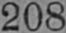208
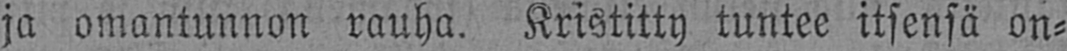ja omantunnon rauha. Kristitty tuntee itsensä on-
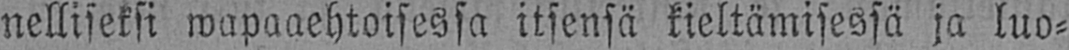nelliseksi wapaaehtoisessa itsensä kieltämisessä ja luo-
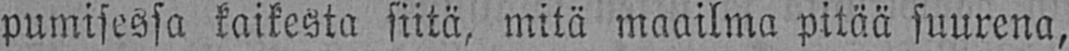pumisessa kaikesta siitä, mitä maailma pitää suurena,
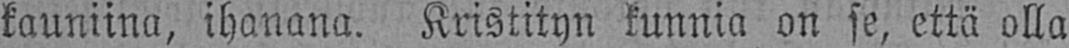kauniina, ihanana. Kristityn kunnia on se, että olla
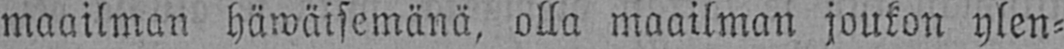maailman häwäisemänä, olla maailman joukon ylen-
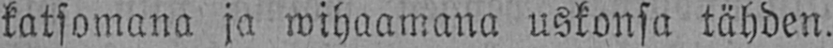katsomana ja wihaamana uskonsa tähden.
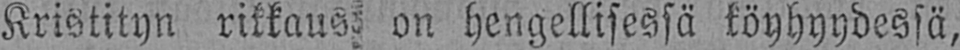Kristityn rikkaus: on hengellisessä köyhyydessä,
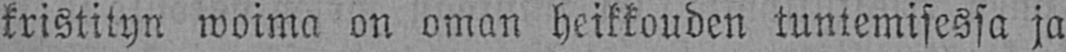kristityn woima on oman heikkouden tuntemisessa ja
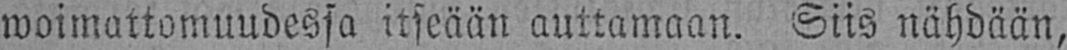woimattomuudessa itseään auttamaan. Siis nähdään,
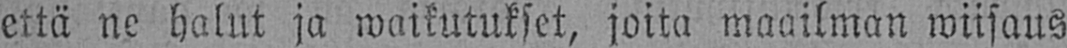että ne halut ja waikutukset, joita maailman wiisaus
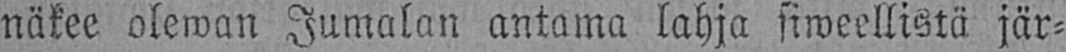näkee olewan Jumalan antama lahja siweellistä jär-
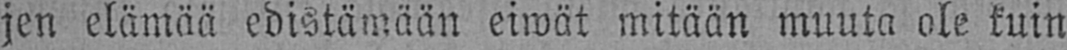jen elämää edistämään eiwät mitään muuta ole kuin
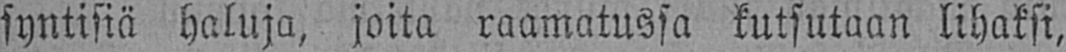syntisiä haluja, joita raamatussa kutsutaan lihaksi,
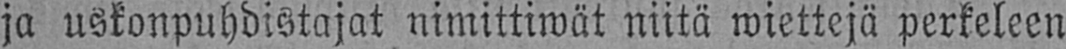ja uskonpuhdistajat nimittiwät niitä wiettejä perkeleen
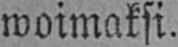woimaksi.
